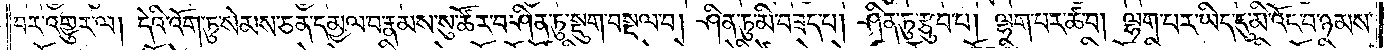བར་འགྱུར་ལ། དེའི་འོག་ཏུ་སེམས་ཅན་དམྱལ་བ་རྣམས་སུ་ཚོར་བ་ཤིན་ཏུ་སྡུག་བསྔལ་བ། ཤིན་ཏུ་མི་བཟད་པ། ཤིན་ཏུ་རྩུབ་པ། ལྷག་པར་ཚ་བ། ལྷག་པར་ཡིད་དུ་མི་འོང་བ་ཉམས་
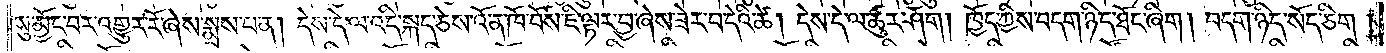སུ་མྱོང་བར་འགྱུར་རོ་ཞེས་སྨྲས་པ་ན། དེས་དེ་ལ་འདི་སྐད་ཅེས་འོ་ན་ཁོ་བོས་ཇི་ལྟར་བྱ་ཞེས་ཟེར་བ་དེའི་ཚེ། དེས་དེ་ལ་ཚུར་ཤོག །ཁྱོད་ཀྱིས་བདག་ཉིད་ཐོང་ཞིག། བདག་ཉིད་སོད་ཅིག །
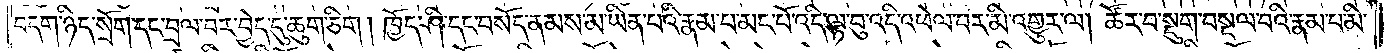བདག་ཉིད་སྲོག་དང་བྲལ་བར་བྱེད་དུ་ཆུག་ཅིག །ཁྱོད་ཤི་དང་བསོད་ནམས་མ་ཡིན་པའི་རྣམ་པ་མང་པོ་འདི་ལྟ་བུ་འདི་འཕེལ་བར་མི་འགྱུར་ལ། ཚོར་བ་སྡུག་བསྔལ་བའི་རྣམ་པ་མི་
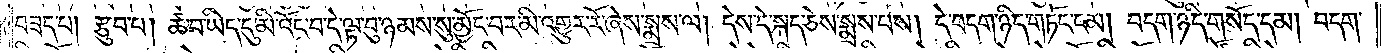བཟད་པ། རྩུབ་པ། ཚ་བ་ཡིད་དུ་མི་འོང་བ་དེ་ལྟ་བུ་ཉམས་སུ་མྱོང་བར་མི་འགྱུར་རོ་ཞེས་སྨྲས་ལ། དེས་དེ་སྐད་ཅེས་སྨྲས་པ། དེ་བདག་ཉིད་གཏོང་ངམ། བདག་ཉིད་གསོད་དམ། བདག་
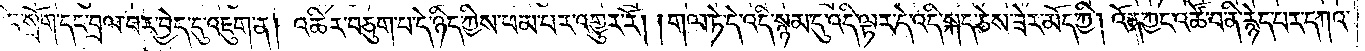ཉིད་སྲོག་དང་བྲལ་བར་བྱེད་དུ་འཇུག་ན། འཆིར་བཅུག་པ་དེ་ཉིད་ཀྱིས་ཕམ་པར་འགྱུར་རོ། །གལ་ཏེ་དེ་འདི་སྙམ་དུ་འདི་ལྟར་དེ་འདི་སྐད་ཅེས་ཟེར་མོད་ཀྱི། འོན་ཀྱང་འཚོ་བ་ནི་རྙེད་པར་དཀའ་
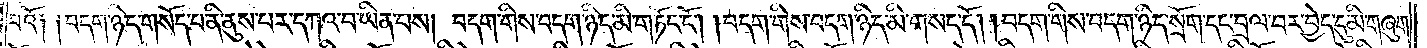བའོ༑ ༑བདག་ཉིད་གསོད་པ་ནི་ནུས་པར་དཀའ་བ་ཡིན་པས། བདག་གིས་བདག་ཉིད་མི་གཏོང་ངོ༌། །བདག་གིས་བདག་ཉིད་མི་གསད་དོ། །བདག་གིས་བདག་ཉིད་སྲོག་དང་བྲལ་བར་བྱེད་དུ་མི་གཞུག་
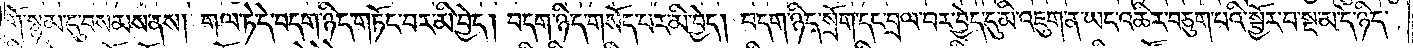གོ་སྙམ་དུ་བསམས་ནས། གལ་ཏེ་དེ་བདག་ཉིད་གཏོང་བར་མི་བྱེད། བདག་ཉིད་གསོད་པར་མི་བྱེད། བདག་ཉིད་སྲོག་དང་བྲལ་བར་བྱེད་དུ་མི་འཇུག་ན་ཡང་འཆིར་བཅུག་པའི་སྦྱོར་བ་སྔ་མ་དེ་ཉིད་
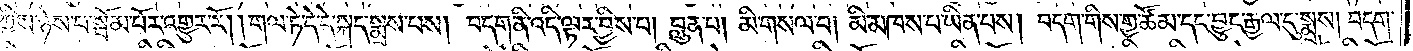ཀྱིས་ཉེས་པ་སྦོམ་པོར་འགྱུར་རོ། །གལ་ཏེ་དེ་དེ་སྐད་སྨྲས་པས། བདག་ནི་འདི་ལྟར་བྱིས་པ། བླུན་པ། མི་གསལ་བ། མི་མཁས་པ་ཡིན་པས། བདག་གིས་གྱ་ཚོམ་དང་བྱུང་རྒྱལ་དུ་སྨྲས། བདག་
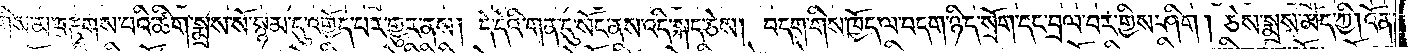གིས་མ་བརྟགས་པའི་ཚིག་སྨྲས་སོ་སྙམ་དུ་འགྱོད་པར་གྱུར་ནས། དེ་དེའི་གན་དུ་སོང་ནས་འདི་སྐད་ཅེས། བདག་གིས་ཁྱོད་ལ་བདག་ཉིད་སྲོག་དང་བྲལ་བར་གྱིས་ཤིག །ཅེས་སྨྲས་མོད་ཀྱི། འོན་
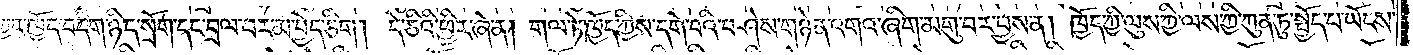ཀྱང་ཁྱོད་བདག་ཉིད་སྲོག་དང་བྲལ་བར་མ་བྱེད་ཅིག །དེ་ཅིའི་ཕྱིར་ཞེ་ན། གལ་ཏེ་ཁྱོད་ཀྱིས་དགེ་བའི་བཤེས་གཉེན་འགའ་ཞིག་མགུ་བར་བྱས་ན། ཁྱོད་ཀྱི་ལུས་ཀྱི་ལས་ཀྱི་ཀུན་ཏུ་སྤྱོད་པ་ཡོངས་
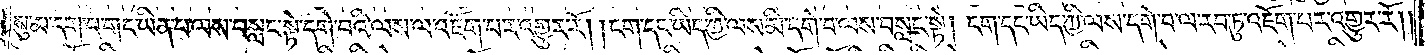སུ་མ་དག་པ་གང་ཡིན་པ་ལས་བསླང་སྟེ་དགེ་བའི་ལས་ལ་འཇོག་པར་འགྱུར་རོ། །ངག་དང་ཡིད་ཀྱི་ལས་མི་དགེ་བ་ལས་བསླང་སྟེ། ངག་དང་ཡིད་ཀྱི་ལས་དགེ་བ་ལ་རབ་ཏུ་འཇོག་པར་འགྱུར་རོ། །
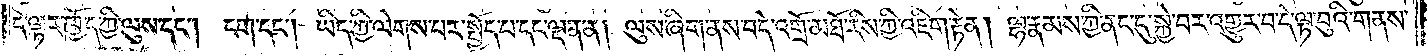དེ་ལྟར་ཁྱོད་ཀྱི་ལུས་དང༌། ངག་དང༌། ཡིད་ཀྱི་ལེགས་པར་སྤྱོད་པ་དང་ལྡན་ན། ལུས་ཞིག་ནས་བདེ་འགྲོ་མཐོ་རིས་ཀྱི་འཇིག་རྟེན། ལྷ་རྣམས་ཀྱི་ནང་དུ་སྐྱེ་བར་འགྱུར་བ་དེ་ལྟ་བུའི་གནས་
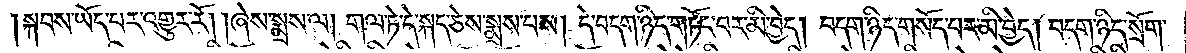སྐབས་ཡོད་པར་འགྱུར་རོ། །ཞེས་སྨྲས་ལ། གལ་ཏེ་དེ་སྐད་ཅེས་སྨྲས་པས། དེ་བདག་ཉིད་གཏོང་བར་མི་བྱེད། བདག་ཉིད་གསོད་པར་མི་བྱེད། བདག་ཉིད་སྲོག་
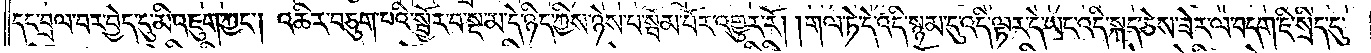དང་བྲལ་བར་བྱེད་དུ་མི་འཇུག་ཀྱང༌། འཆིར་བཅུག་པའི་སྦྱོར་བ་སྔ་མ་དེ་ཉིད་ཀྱིས་ཉེས་པ་སྦོམ་པོར་འགྱུར་རོ། །གལ་ཏེ་དེ་འདི་སྙམ་དུ་འདི་ལྟར་དེ་ཡང་འདི་སྐད་ཅེས་ཟེར་ལ་བདག་ཇི་སྲིད་དུ་
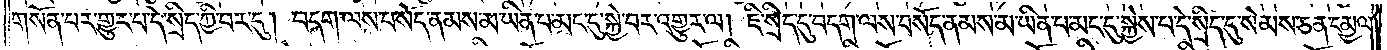གསོན་པར་གྱུར་པ་དེ་སྲིད་ཀྱི་བར་དུ། བདག་ལས་བསོད་ནམས་མ་ཡིན་པ་མང་དུ་སྐྱེ་བར་འགྱུར་ལ། ཇི་སྲིད་དུ་བདག་ལས་བསོད་ནམས་མ་ཡིན་པ་མང་དུ་སྐྱེས་པ་དེ་སྲིད་དུ་སེམས་ཅན་དམྱལ་
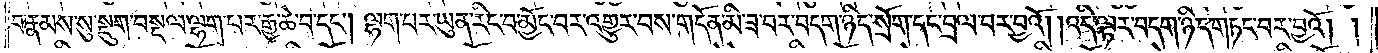བ་རྣམས་སུ་སྡུག་བསྔལ་ལྷག་པར་རྒྱ་ཆེ་བ་དང༌། ལྷག་པར་ཡུན་རིང་བ་མྱོང་བར་འགྱུར་བས་གདོན་མི་ཟ་བར་བདག་ཉིད་སྲོག་དང་བྲལ་བར་བྱའོ། །འདི་ལྟར་བདག་ཉིད་གཏང་བར་བྱའོ། །
